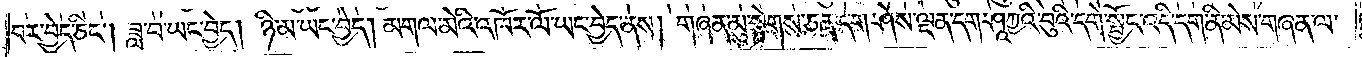བར་བྱེད་ཅིང༌། ཟླ་བ་ཡང་བྱེད། ཉི་མ་ཡང་བྱེད། མགལ་མེའི་འཁོར་ལོ་ཡང་བྱེད་ནས། གཞན་མུ་སྟེགས་ཅན་དག་ཤེས་ལྡན་དག་ཤཱཀྱའི་བུའི་དགེ་སྦྱོང་འདི་དག་ནི་མེས་གཞན་ལ་
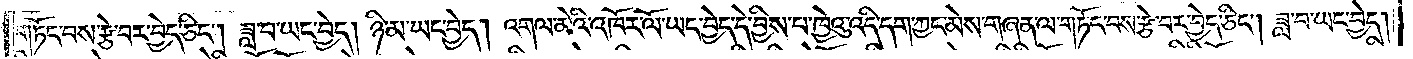གཏོང་བས་རྩེ་བར་བྱེད་ཅིང༌། ཟླ་བ་ཡང་བྱེད། ཉི་མ་ཡང་བྱེད། འགལ་མེའི་འཁོར་ལོ་ཡང་བྱེད་དེ་བྱིས་པ་ཁྱེའུ་འདི་དག་ཀྱང་མེས་གཞན་ལ་གཏོང་བས་རྩེ་བར་བྱེད་ཅིང༌། ཟླ་བ་ཡང་བྱེད།
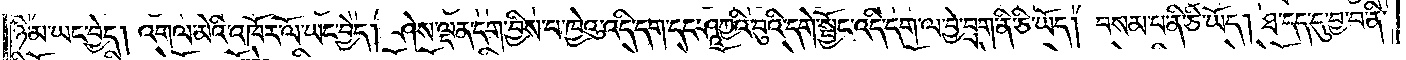ཉི་མ་ཡང་བྱེད། འགལ་མེའི་འཁོར་ལོ་ཡང་བྱེད། ཤེས་ལྡན་དག་བྱིས་པ་ཁྱེའུ་འདི་དག་དང་ཤཱཀྱའི་བུའི་དགེ་སྦྱོང་འདི་དག་ལ་བྱེ་བྲག་ནི་ཅི་ཡོད། བསམ་པ་ནི་ཅི་ཡོད། ཐ་དད་དུ་བྱ་བ་ནི་
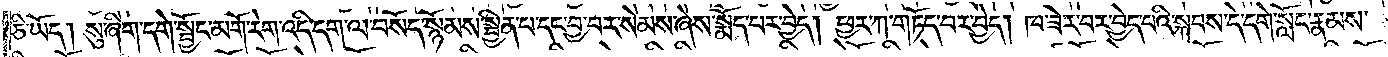ཅི་ཡོད། སུ་ཞིག་དགེ་སྦྱོང་མགོ་རེག་འདི་དག་ལ་བསོད་སྙོམས་སྦྱིན་པ་དང་བྱ་བར་སེམས་ཞེས་སྨོད་པར་བྱེད། ཕྱར་ཀ་གཏོད་བར་བྱེད། ཁ་ཟེར་བར་བྱེད་པའི་སྐབས་དེ་དགེ་སློང་རྣམས་
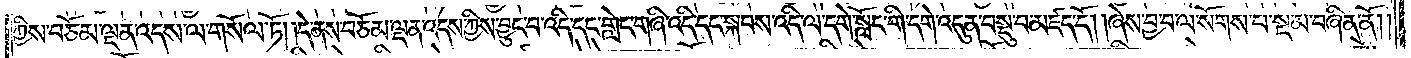ཀྱིས་བཅོམ་ལྡན་འདས་ལ་གསོལ་ཏོ། །དེ་ནས་བཅོམ་ལྡན་འདས་ཀྱིས་བྱུང་བ་འདི་དང་གླེང་གཞི་འདི་དང་སྐབས་འདི་ལ་དགེ་སློང་གི་དགེ་འདུན་བསྡུ་བ་མཛད་དོ། །ཞེས་བྱ་བ་ལ་སོགས་པ་སྔ་མ་བཞིན་ནོ༎
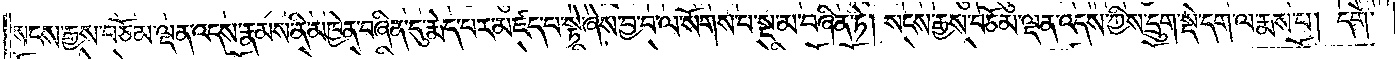སངས་རྒྱས་བཅོམ་ལྡན་འདས་རྣམས་ནི་མཁྱེན་བཞིན་དུ་རྨེད་པར་མཛད་པ་སྟེ་ཞེས་བྱ་བ་ལ་སོགས་པ་སྔ་མ་བཞིན་ཏེ། སངས་རྒྱས་བཅོམ་ལྡན་འདས་ཀྱིས་དྲུག་སྡེ་དག་ལ་རྨས་པ། དགེ་
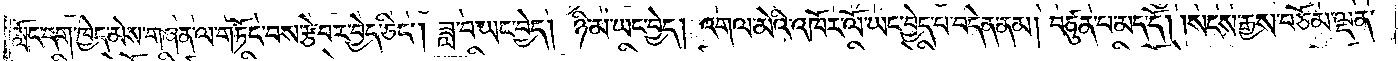སློང་དག་བྱེད་མེས་གཞན་ལ་གཏོང་བས་རྩེ་བར་བྱེད་ཅིང༌། ཟླ་བ་ཡང་བྱེད། ཉི་མ་ཡང་བྱེད། འགལ་མེའི་འཁོར་ལོ་ཡང་བྱེད་པ་བདེན་ནམ། བཙུན་པ་མད་དོ། །སངས་རྒྱས་བཅོམ་ལྡན་
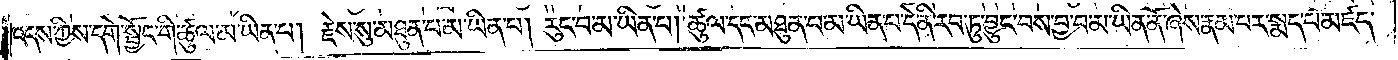འདས་ཀྱིས་དགེ་སྦྱོང་གི་ཚུལ་མ་ཡིན་པ། རྗེས་སུ་མཐུན་པ་མ་ཡིན་པ། རུང་བ་མ་ཡིན་པ། ཚུལ་དང་མཐུན་པ་མ་ཡིན་པ་དེ་ནི་རབ་ཏུ་བྱུང་བས་བྱ་བ་མ་ཡིན་ནོ་ཞེས་རྣམ་བར་སྨད་པ་མཛད་
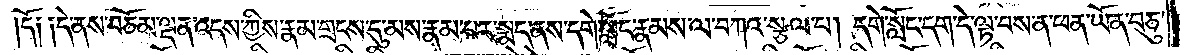དོ༑ ༑དེ་ནས་བཅོམ་ལྡན་འདས་ཀྱིས་རྣམ་གྲངས་དུ་མས་རྣམ་པར་སྨད་ནས་དགེ་སློང་རྣམས་ལ་བཀའ་སྩལ་པ། དགེ་སློང་དག་དེ་ལྟ་བས་ན་ཕན་ཡོན་བཅུ་
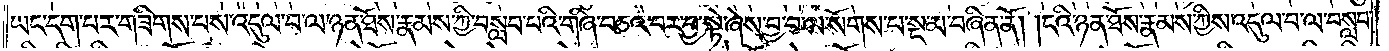ཡང་དག་པར་གཟིགས་པས་འདུལ་བ་ལ་ཉན་ཐོས་རྣམས་ཀྱི་བསླབ་པའི་གཞི་བཅའ་བར་བྱ་སྟེ་ཞེས་བྱ་བ་ལ་སོགས་པ་སྔ་མ་བཞིན་ནོ། །ངའི་ཉན་ཐོས་རྣམས་ཀྱིས་འདུལ་བ་ལ་བསླབ་
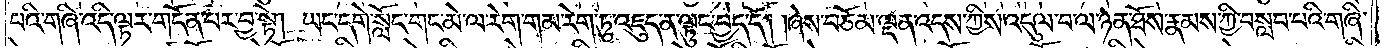པའི་གཞི་འདི་ལྟར་གདོན་པར་བྱ་སྟེ། ཡང་དགེ་སློང་གང་མེ་ལ་རེག་གམ་རེག་ཏུ་འཇུད་ན་ལྟུང་བྱེད་དོ། །ཞེས་བཅོམ་ལྡན་འདས་ཀྱིས་འདུལ་བ་ལ་ཉན་ཐོས་རྣམས་ཀྱི་བསླབ་པའི་གཞི་
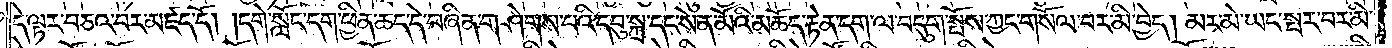དེ་ལྟར་བཅའ་བར་མཛད་དོ། །དགེ་སློང་དག་ཕྱིན་ཆད་དེ་བཞིན་གཤེགས་པའི་དབུ་སྐྲ་དང་སེན་མོའི་མཆོད་རྟེན་དག་ལ་བདུག་སྤོས་ཀྱང་གསོལ་བར་མི་བྱེད། མར་མེ་ཡང་སྤར་བར་མི་
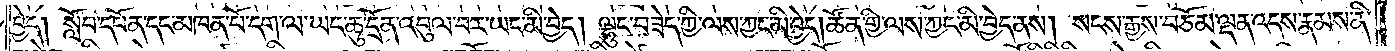བྱེད། སློབ་དཔོན་དང་མཁན་པོ་དག་ལ་ཡང་ཆུ་དྲོན་འབུལ་བར་ཡང་མི་བྱེད། ལྷུང་བཟེད་ཀྱི་ལས་ཀྱང་མི་བྱེད། ཚོན་གྱི་ལས་ཀྱང་མི་བྱེད་ནས། སངས་རྒྱས་བཅོམ་ལྡན་འདས་རྣམས་ནི་
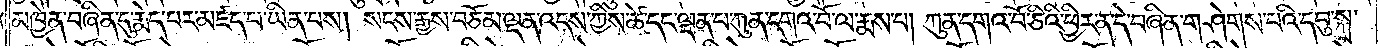མཁྱེན་བཞིན་དུ་རྨེད་པར་མཛད་པ་ཡིན་པས། སངས་རྒྱས་བཅོམ་ལྡན་འདས་ཀྱིས་ཚེ་དང་ལྡན་པ་ཀུན་དགའ་བོ་ལ་རྨས་པ། ཀུན་དགའ་བོ་ཅིའི་ཕྱིར་ན་དེ་བཞིན་གཤེགས་པའི་དབུ་སྐྲ་
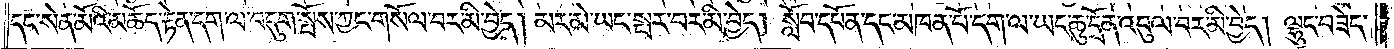དང་སེན་མོའི་མཆོད་རྟེན་དག་ལ་བདུག་སྤོས་ཀྱང་གསོལ་བར་མི་བྱེད། མར་མེ་ཡང་སྤར་བར་མི་བྱེད། སློབ་དཔོན་དང་མཁན་པོ་དག་ལ་ཡང་ཆུ་དྲོན་འབུལ་བར་མི་བྱེད། ལྷུང་བཟེད་
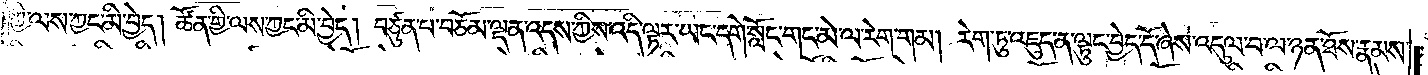ཀྱི་ལས་ཀྱང་མི་བྱེད། ཚོན་གྱི་ལས་ཀྱང་མི་བྱེད། བཙུན་པ་བཅོམ་ལྡན་འདས་ཀྱིས་འདི་ལྟར་ཡང་དགེ་སློང་གང་མེ་ལ་རེག་གམ། རེག་ཏུ་འཇུད་ན་ལྟུང་བྱེད་དོ་ཞེས་འདུལ་བ་ལ་ཉན་ཐོས་རྣམས་
